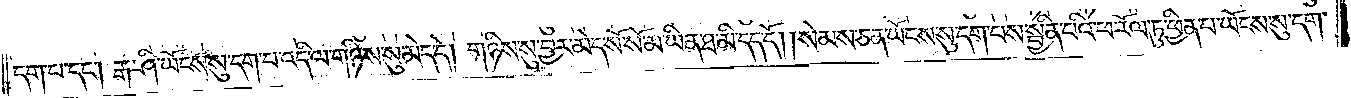དག་པ་དང༌། རྒ་ཤི་ཡོངས་སུ་དག་པ་འདི་ལ་གཉིས་སུ་མེད་དེ། གཉིས་སུ་བྱར་མེད་སོ་སོ་མ་ཡིན་ཐ་མི་དད་དོ། །སེམས་ཅན་ཡོངས་སུ་དག་པས་སྦྱིན་པའི་ཕ་རོལ་ཏུ་ཕྱིན་པ་ཡོངས་སུ་དག་
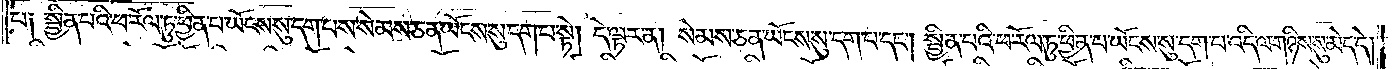པ༑ སྦྱིན་པའི་ཕ་རོལ་ཏུ་ཕྱིན་པ་ཡོངས་སུ་དག་པས་སེམས་ཅན་ཡོངས་སུ་དག་པ་སྟེ། དེ་ལྟར་ན། སེམས་ཅན་ཡོངས་སུ་དག་པ་དང༌། སྦྱིན་པའི་ཕ་རོལ་ཏུ་ཕྱིན་པ་ཡོངས་སུ་དག་པ་འདི་ལ་གཉིས་སུ་མེད་དེ།
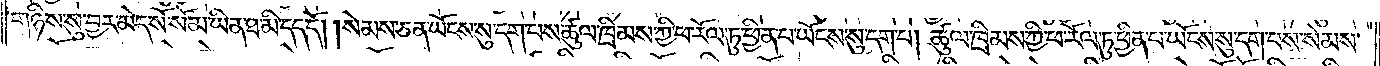གཉིས་སུ་བྱར་མེད་སོ་སོ་མ་ཡིན་ཐ་མི་དད་དོ། །སེམས་ཅན་ཡོངས་སུ་དག་པས་ཚུལ་ཁྲིམས་ཀྱི་ཕ་རོལ་ཏུ་ཕྱིན་པ་ཡོངས་སུ་དག་པ། ཚུལ་ཁྲིམས་ཀྱི་ཕ་རོལ་ཏུ་ཕྱིན་པ་ཡོངས་སུ་དག་པས་སེམས་
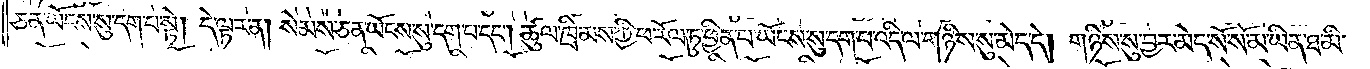ཅན་ཡོངས་སུ་དག་པ་སྟེ། དེ་ལྟར་ན། སེམས་ཅན་ཡོངས་སུ་དག་པ་དང༌། ཚུལ་ཁྲིམས་ཀྱི་ཕ་རོལ་ཏུ་ཕྱིན་པ་ཡོངས་སུ་དག་པ་འདི་ལ་གཉིས་སུ་མེད་དེ། གཉིས་སུ་བྱར་མེད་སོ་སོ་མ་ཡིན་ཐ་མི་
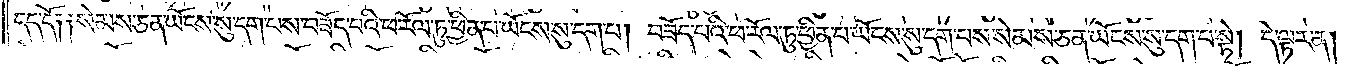དད་དོ༑ ༑སེམས་ཅན་ཡོངས་སུ་དག་པས་བཟོད་པའི་ཕ་རོལ་ཏུ་ཕྱིན་པ་ཡོངས་སུ་དག་པ། བཟོད་པའི་ཕ་རོལ་ཏུ་ཕྱིན་པ་ཡོངས་སུ་དག་པས་སེམས་ཅན་ཡོངས་སུ་དག་པ་སྟེ། དེ་ལྟར་ན།
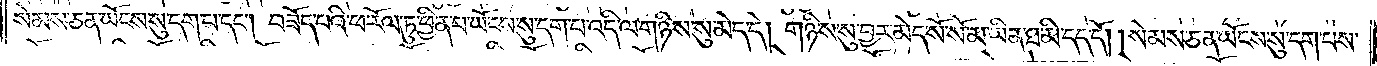སེམས་ཅན་ཡོངས་སུ་དག་པ་དང༌། བཟོད་པའི་ཕ་རོལ་ཏུ་ཕྱིན་པ་ཡོངས་སུ་དག་པ་འདི་ལ་གཉིས་སུ་མེད་དེ། གཉིས་སུ་བྱར་མེད་སོ་སོ་མ་ཡིན་ཐ་མི་དད་དོ། །སེམས་ཅན་ཡོངས་སུ་དག་པས་
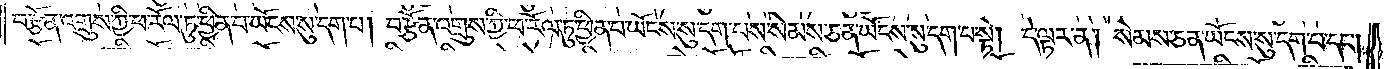བརྩོན་འགྲུས་ཀྱི་ཕ་རོལ་ཏུ་ཕྱིན་པ་ཡོངས་སུ་དག་པ། བརྩོན་འགྲུས་ཀྱི་ཕ་རོལ་ཏུ་ཕྱིན་པ་ཡོངས་སུ་དག་པས་སེམས་ཅན་ཡོངས་སུ་དག་པ་སྟེ། དེ་ལྟར་ན། སེམས་ཅན་ཡོངས་སུ་དག་པ་དང༌།
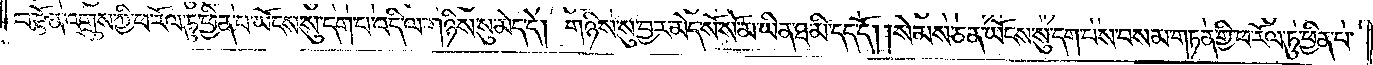བརྩོན་འགྲུས་ཀྱི་ཕ་རོལ་ཏུ་ཕྱིན་པ་ཡོངས་སུ་དག་པ་འདི་ལ་གཉིས་སུ་མེད་དེ། གཉིས་སུ་བྱར་མེད་སོ་སོ་མ་ཡིན་ཐ་མི་དད་དོ། །སེམས་ཅན་ཡོངས་སུ་དག་པས་བསམ་གཏན་གྱི་ཕ་རོལ་ཏུ་ཕྱིན་པ་
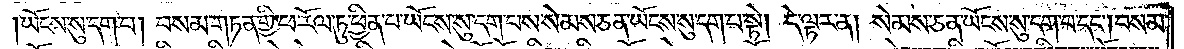ཡོངས་སུ་དག་པ། བསམ་གཏན་གྱི་ཕ་རོལ་ཏུ་ཕྱིན་པ་ཡོངས་སུ་དག་པས་སེམས་ཅན་ཡོངས་སུ་དག་པ་སྟེ། དེ་ལྟར་ན། སེམས་ཅན་ཡོངས་སུ་དག་པ་དང༌། བསམ་
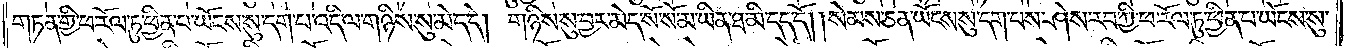གཏན་གྱི་ཕ་རོལ་ཏུ་ཕྱིན་པ་ཡོངས་སུ་དག་པ་འདི་ལ་གཉིས་སུ་མེད་དེ། གཉིས་སུ་བྱར་མེད་སོ་སོ་མ་ཡིན་ཐ་མི་དད་དོ། །སེམས་ཅན་ཡོངས་སུ་དག་པས་ཤེས་རབ་ཀྱི་ཕ་རོལ་ཏུ་ཕྱིན་པ་ཡོངས་སུ་
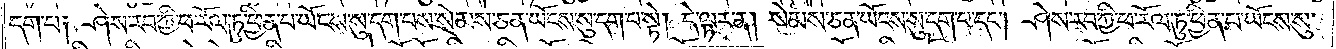དག་པ༑ ཤེས་རབ་ཀྱི་ཕ་རོལ་ཏུ་ཕྱིན་པ་ཡོངས་སུ་དག་པས་སེམས་ཅན་ཡོངས་སུ་དག་པ་སྟེ། དེ་ལྟར་ན། སེམས་ཅན་ཡོངས་སུ་དག་པ་དང༌། ཤེས་རབ་ཀྱི་ཕ་རོལ་ཏུ་ཕྱིན་པ་ཡོངས་སུ་
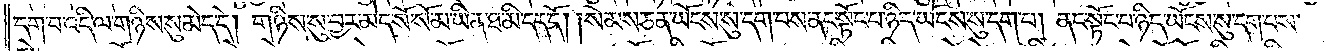དག་པ་འདི་ལ་གཉིས་སུ་མེད་དེ། གཉིས་སུ་བྱར་མེད་སོ་སོ་མ་ཡིན་ཐ་མི་དད་དོ། །སེམས་ཅན་ཡོངས་སུ་དག་པས་ནང་སྟོང་པ་ཉིད་ཡོངས་སུ་དག་པ། ནང་སྟོང་པ་ཉིད་ཡོངས་སུ་དག་པས་
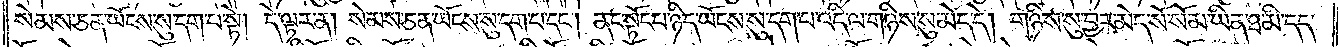སེམས་ཅན་ཡོངས་སུ་དག་པ་སྟེ། དེ་ལྟར་ན། སེམས་ཅན་ཡོངས་སུ་དག་པ་དང༌། ནང་སྟོང་པ་ཉིད་ཡོངས་སུ་དག་པ་འདི་ལ་གཉིས་སུ་མེད་དེ། གཉིས་སུ་བྱར་མེད་སོ་སོ་མ་ཡིན་ཐ་མི་དད་
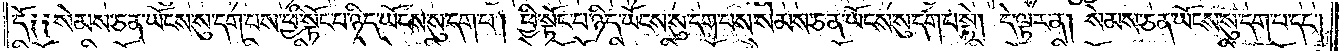དོ༑ ༑སེམས་ཅན་ཡོངས་སུ་དག་པས་ཕྱི་སྟོང་པ་ཉིད་ཡོངས་སུ་དག་པ། ཕྱི་སྟོང་པ་ཉིད་ཡོངས་སུ་དག་པས་སེམས་ཅན་ཡོངས་སུ་དག་པ་སྟེ། དེ་ལྟར་ན། སེམས་ཅན་ཡོངས་སུ་དག་པ་དང༌།
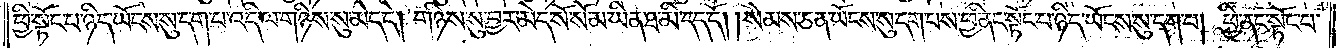ཕྱི་སྟོང་པ་ཉིད་ཡོངས་སུ་དག་པ་འདི་ལ་གཉིས་སུ་མེད་དེ། གཉིས་སུ་བྱར་མེད་སོ་སོ་མ་ཡིན་ཐ་མི་དད་དོ། །སེམས་ཅན་ཡོངས་སུ་དག་པས་ཕྱི་ནང་སྟོང་པ་ཉིད་ཡོངས་སུ་དག་པ། ཕྱི་ནང་སྟོང་པ་
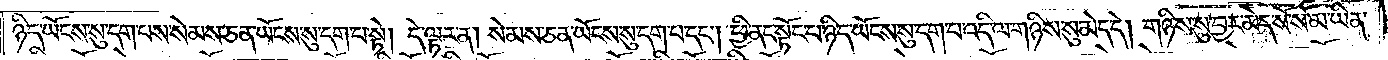ཉིད་ཡོངས་སུ་དག་པས་སེམས་ཅན་ཡོངས་སུ་དག་པ་སྟེ། དེ་ལྟར་ན། སེམས་ཅན་ཡོངས་སུ་དག་པ་དང༌། ཕྱི་ནང་སྟོང་པ་ཉིད་ཡོངས་སུ་དག་པ་འདི་ལ་གཉིས་སུ་མེད་དེ། གཉིས་སུ་བྱར་མེད་སོ་སོ་མ་ཡིན་
